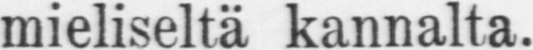mieliseltä kannalta.
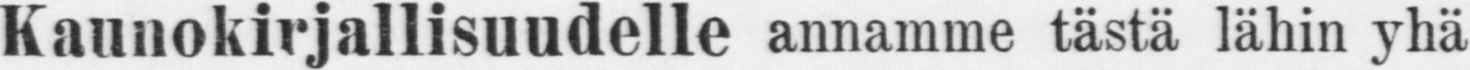Kaunokirjallisuudelle annamme tästä lähin yhä
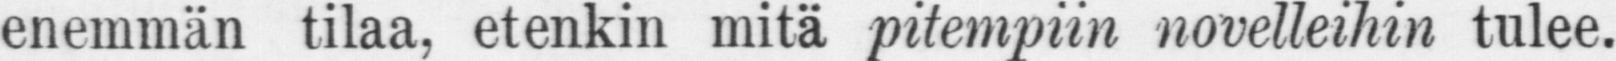enemmän tilaa, etenkin mitä pitempiin novelleihin tulee.
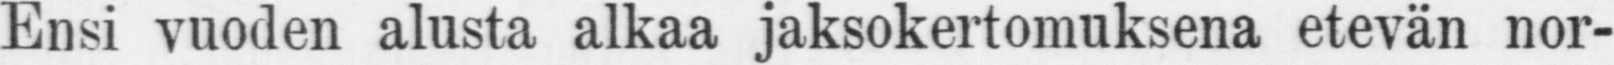Ensi vuoden alusta alkaa jaksokertomuksena etevän nor-
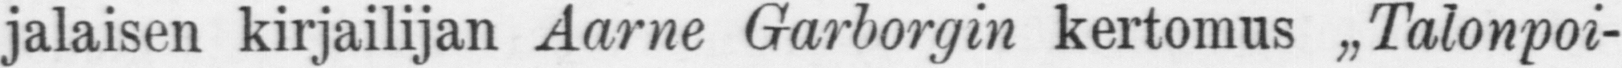jalaisen kirjailijan Aarne Garborgin kertomus „Talonpoi-
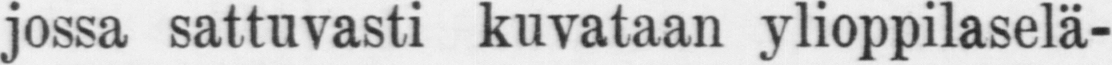kaisylioppilaita", jossa sattuvasti kuvataan ylioppilaselä-
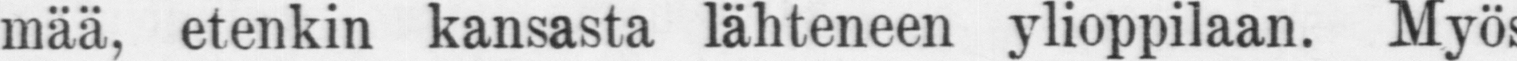mää, etenkin kansasta lähteneen ylioppilaan. Myöskin
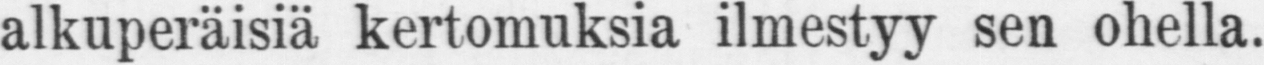alkuperäisiä kertomuksia ilmesty sen ohella.
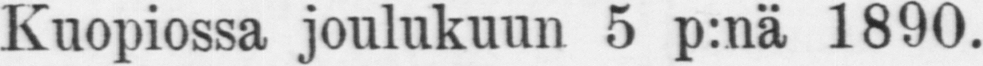Kuopiossa joulukuun 5 p:nä 1890.
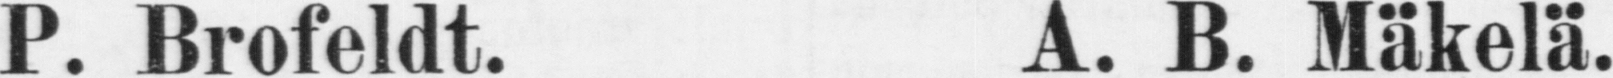P. Brofeldt. A. B. Mäkelä.
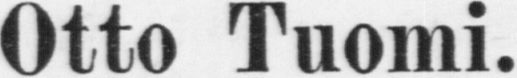Otto Tuomi.
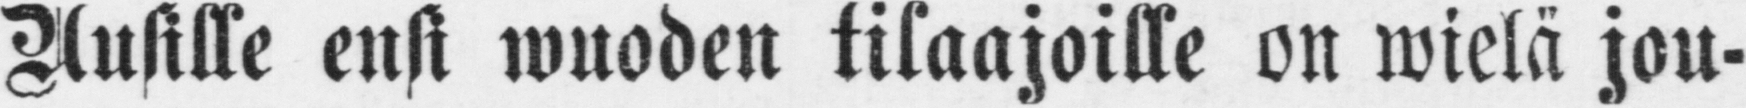Uusille ensi wuoden tilaajoille on wielä jou-
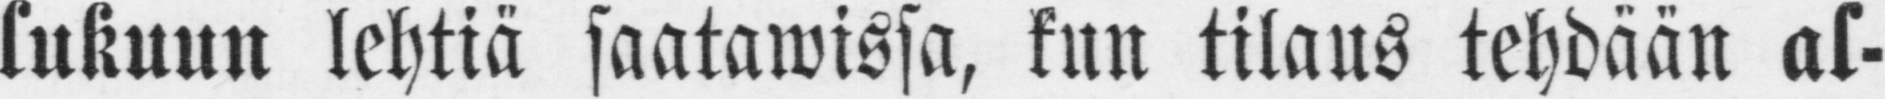lukuun lehtiä saatawissa, kun tilaus tehdään al-
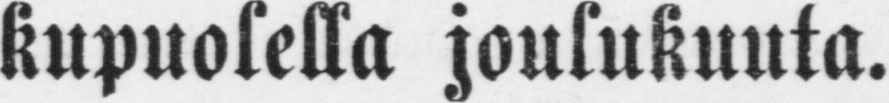kupuolella joulukuuta.
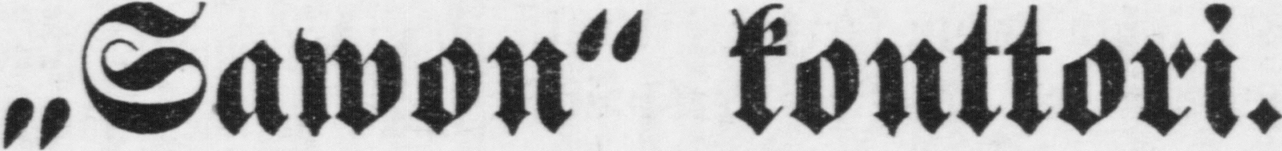„Sawon" konttori.
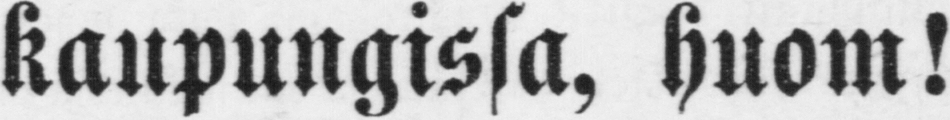kaupungissa, huom!
